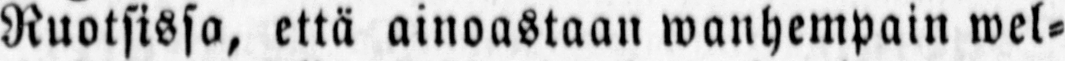Ruotsissa, että ainoastaan wanhempain wel-
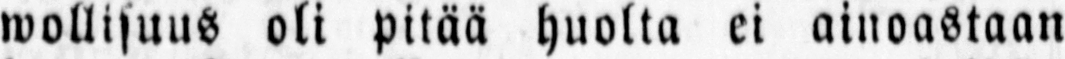wollisuns oli pitää huolta ei ainoastaan
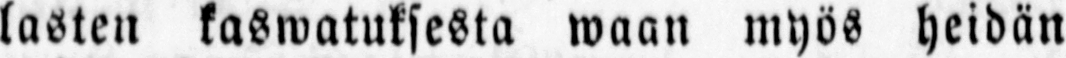lasten kaswatuksesta waan myös heidän
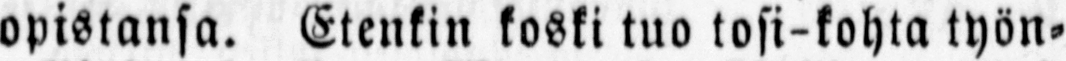opistansa. Etenkin koski tuo tosi-kohta työn-
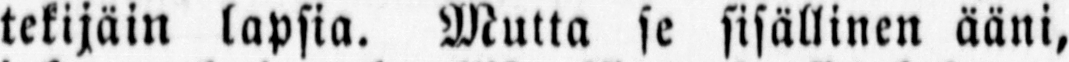tekijäin lapsia. Mutta se sisällinen ääni,
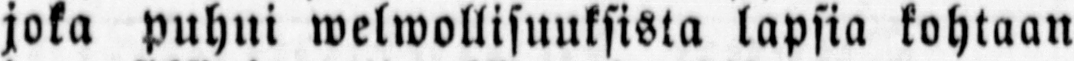joka puhui welwollisuuksista lapsia kohtaan
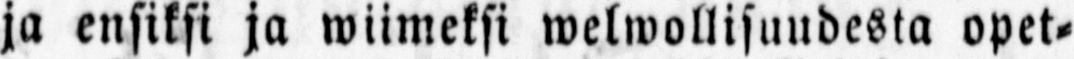ja ensiksi ja wiimeksi welwollisuudesta opet-
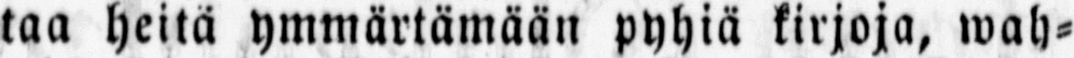taa heitä ymmärtämään pyhiä kirjoja, wah-
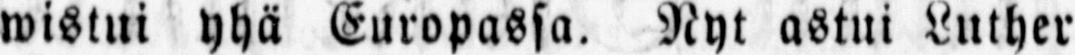wistui yhä Europassa. Nyt astui Luther
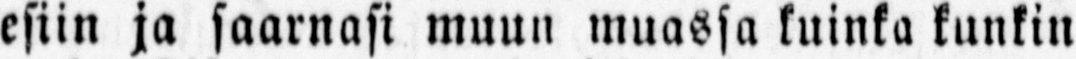esiin ja saarnasi muun muassa kuinka kunkin
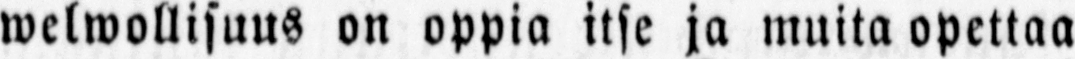welwollisuus on oppia itse ja maita opettaa
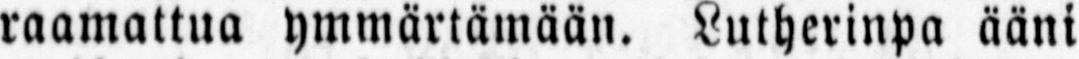raamattua ymmärtämään. Lutherinpa ääni
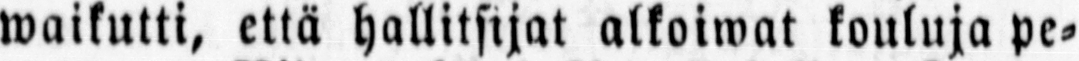waikutti, että hallitsijat alkoiwat kouluja pe-
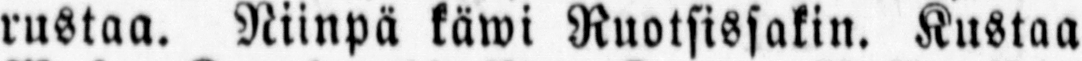rustaa. Niinpä käwi Ruotsissakin. Kustaa
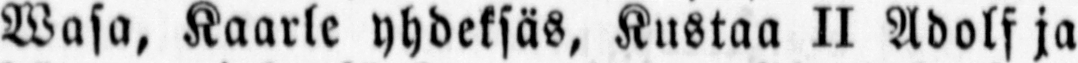Wasa, Kaarle yhdeksäs, Kustaa II Adolf ja
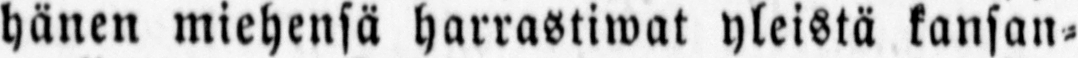hänen miehensä harrastiwat yleistä kansan-
